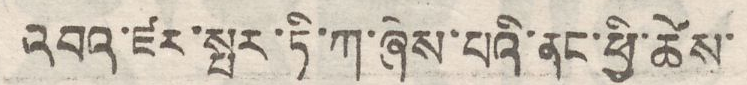འབའ་ཛར་སྤར་ཏི་ཀ་ཞེས་པའི་ནང་ཕྱི་ཚེས་
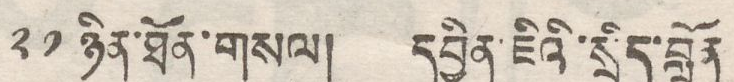༢༡ ཉིན་ཐོན་གསལ། དབྱིན་ཇིའི་སྲིད་བློན
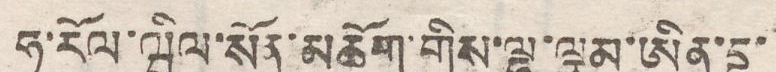ཧ་རོལ་ཝིལ་སོན་མཆོག་གིས་ལྷ་ལྕམ་ཨིན་དྷ་
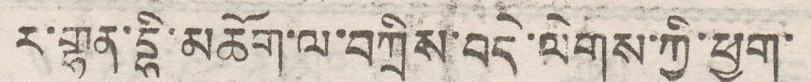ར་གྷན་དྷི་མཆོག་ལ་བཀྲིས་བདེ་ལེགས་ཀྱི་ཕྱག་
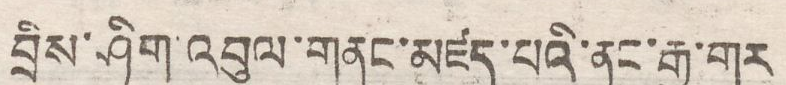བྲིས་ཤིག་འབུལ་གནང་མཛད་པའི་ནང་རྒྱ་གར
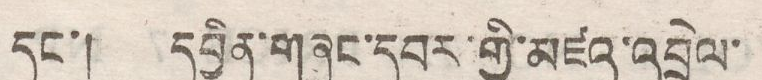དང་། དབྱིན་གཞུང་དབང་གྱི་མཛའ་འབྲེལ་
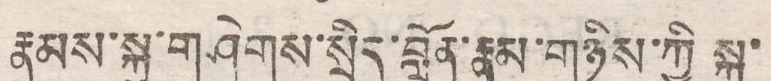རྣམས་སྐུ་གཤེགས་སྲིད་བློན་རྣམ་གཉིས་ཀྱི སྐུ་
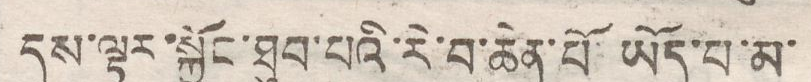དུས་ལྟར་སྐྱོང་ཐུབ་པའི་རེ་བ་ཆེན་པོ་ཡོད་པ་མ་
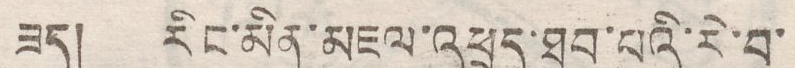ཟད། རིང་མིན་མཇལ་འཕྲད་ཐུབ་པའི་རེ་བ་
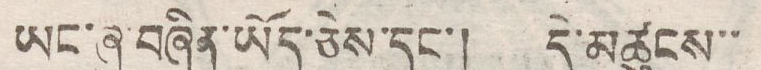ཡང་ཞུ་བཞིན་ཡོད་ཅེས་དང་། དེ་མཚུངས་་
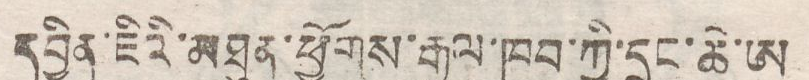དབྱིན་ཇིའི་མཐུན་ཕྱོགས་རྒྱལ་ཁབ་ཀྱི་དྲུང་ཆེ་ཨ
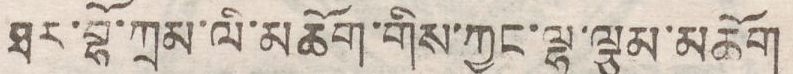ཐར་བྷོ་ཀྲམ་ལི་མཆོག་གིས་ཀྱང་ལྷ་ལྕམ་མཆོག
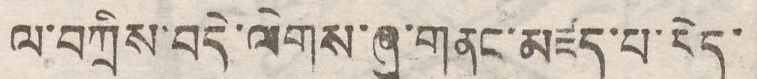ལ་བཀྲིས་བདེ་ལེགས་ཞུ་གནང་མཛད་པ་རེད་
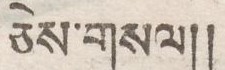ཅེས་གསལ།།
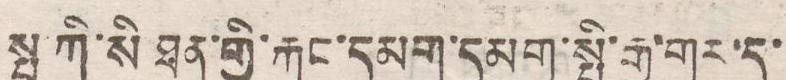སྤ་ཀི་སི ཐན་གྱི་རྐང་དམག་དམག་སྤྱི་རྒྱ་གར་དུ་
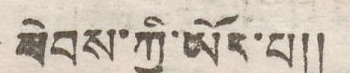ཕེབས་ཀྱི་ཡོད་པ།།
